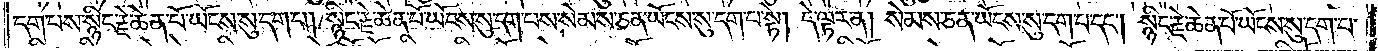དག་པས་སྙིང་རྗེ་ཆེན་པོ་ཡོངས་སུ་དག་པ། སྙིང་རྗེ་ཆེན་པོ་ཡོངས་སུ་དག་པས་སེམས་ཅན་ཡོངས་སུ་དག་པ་སྟེ། དེ་ལྟར་ན། སེམས་ཅན་ཡོངས་སུ་དག་པ་དང༌། སྙིང་རྗེ་ཆེན་པོ་ཡོངས་སུ་དག་པ་
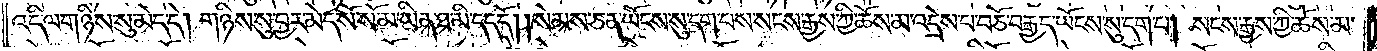འདི་ལ་གཉིས་སུ་མེད་དེ། གཉིས་སུ་བྱར་མེད་སོ་སོ་མ་ཡིན་ཐ་མི་དད་དོ། །སེམས་ཅན་ཡོངས་སུ་དག་པས་སངས་རྒྱས་ཀྱི་ཆོས་མ་འདྲེས་པ་བཅོ་བརྒྱད་ཡོངས་སུ་དག་པ། སངས་རྒྱས་ཀྱི་ཆོས་མ་
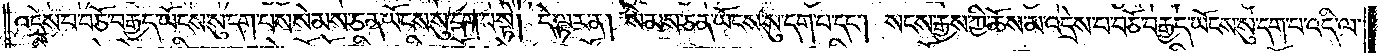འདྲེས་པ་བཅོ་བརྒྱད་ཡོངས་སུ་དག་པས་སེམས་ཅན་ཡོངས་སུ་དག་པ་སྟེ། དེ་ལྟར་ན། སེམས་ཅན་ཡོངས་སུ་དག་པ་དང༌། སངས་རྒྱས་ཀྱི་ཆོས་མ་འདྲེས་པ་བཅོ་བརྒྱད་ཡོངས་སུ་དག་པ་འདི་ལ་
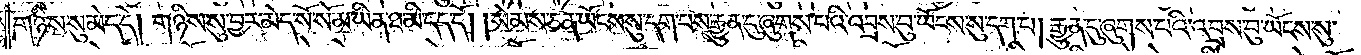གཉིས་སུ་མེད་དེ། གཉིས་སུ་བྱར་མེད་སོ་སོ་མ་ཡིན་ཐ་མི་དད་དོ། །སེམས་ཅན་ཡོངས་སུ་དག་པས་རྒྱུན་དུ་ཞུགས་པའི་འབྲས་བུ་ཡོངས་སུ་དག་པ། རྒྱུན་དུ་ཞུགས་པའི་འབྲས་བུ་ཡོངས་སུ་
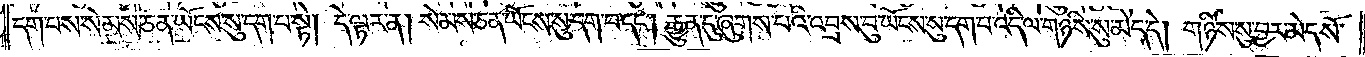དག་པས་སེམས་ཅན་ཡོངས་སུ་དག་པ་སྟེ། དེ་ལྟར་ན། སེམས་ཅན་ཡོངས་སུ་དག་པ་དང༌། རྒྱུན་དུ་ཞུགས་པའི་འབྲས་བུ་ཡོངས་སུ་དག་པ་འདི་ལ་གཉིས་སུ་མེད་དེ། གཉིས་སུ་བྱར་མེད་སོ་
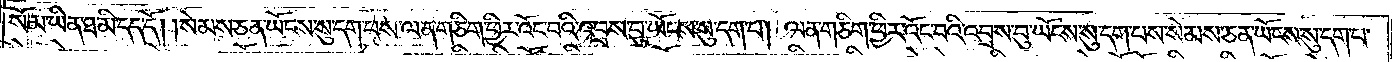སོ་མ་ཡིན་ཐ་མི་དད་དོ། །སེམས་ཅན་ཡོངས་སུ་དག་པས་ལན་ཅིག་ཕྱིར་འོང་བའི་འབྲས་བུ་ཡོངས་སུ་དག་པ། ལན་ཅིག་ཕྱིར་འོང་བའི་འབྲས་བུ་ཡོངས་སུ་དག་པས་སེམས་ཅན་ཡོངས་སུ་དག་པ་
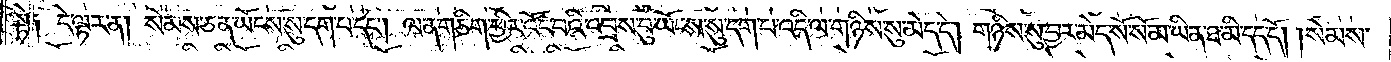སྟེ༑ དེ་ལྟར་ན། སེམས་ཅན་ཡོངས་སུ་དག་པ་དང༌། ལན་ཅིག་ཕྱིར་འོང་བའི་འབྲས་བུ་ཡོངས་སུ་དག་པ་འདི་ལ་གཉིས་སུ་མེད་དེ། གཉིས་སུ་བྱར་མེད་སོ་སོ་མ་ཡིན་ཐ་མི་དད་དོ། །སེམས་
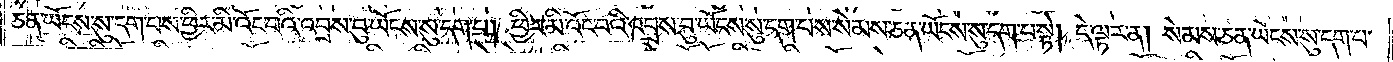ཅན་ཡོངས་སུ་དག་པས་ཕྱིར་མི་འོང་བའི་འབྲས་བུ་ཡོངས་སུ་དག་པ། ཕྱིར་མི་འོང་བའི་འབྲས་བུ་ཡོངས་སུ་དག་པས་སེམས་ཅན་ཡོངས་སུ་དག་པ་སྟེ། དེ་ལྟར་ན། སེམས་ཅན་ཡོངས་སུ་དག་པ་
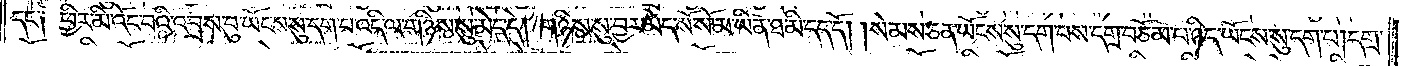དང་༑ ཕྱིར་མི་འོང་བའི་འབྲས་བུ་ཡོངས་སུ་དག་པ་འདི་ལ་གཉིས་སུ་མེད་དེ། གཉིས་སུ་བྱར་མེད་སོ་སོ་མ་ཡིན་ཐ་མི་དད་དོ། །སེམས་ཅན་ཡོངས་སུ་དག་པས་དགྲ་བཅོམ་པ་ཉིད་ཡོངས་སུ་དག་པ། དགྲ་
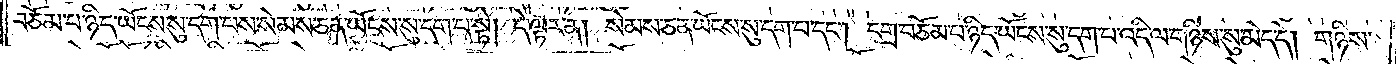བཅོམ་པ་ཉིད་ཡོངས་སུ་དག་པས་སེམས་ཅན་ཡོངས་སུ་དག་པ་སྟེ། དེ་ལྟར་ན། སེམས་ཅན་ཡོངས་སུ་དག་པ་དང༌། དགྲ་བཅོམ་པ་ཉིད་ཡོངས་སུ་དག་པ་འདི་ལ་གཉིས་སུ་མེད་དེ། གཉིས་
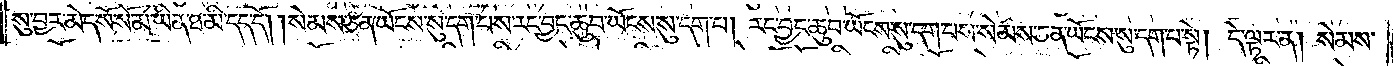སུ་བྱར་མེད་སོ་སོ་མ་ཡིན་ཐ་མི་དད་དོ། །སེམས་ཅན་ཡོངས་སུ་དག་པས་རང་བྱང་ཆུབ་ཡོངས་སུ་དག་པ། རང་བྱང་ཆུབ་ཡོངས་སུ་དག་པས་སེམས་ཅན་ཡོངས་སུ་དག་པ་སྟེ། དེ་ལྟར་ན། སེམས་
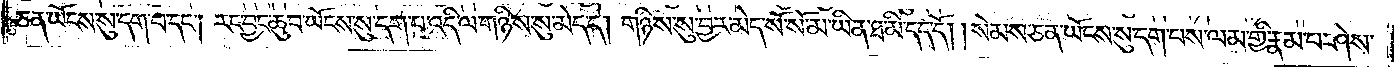ཅན་ཡོངས་སུ་དག་པ་དང༌། རང་བྱང་ཆུབ་ཡོངས་སུ་དག་པ་འདི་ལ་གཉིས་སུ་མེད་དེ། གཉིས་སུ་བྱར་མེད་སོ་སོ་མ་ཡིན་ཐ་མི་དད་དོ། །སེམས་ཅན་ཡོངས་སུ་དག་པས་ལམ་གྱི་རྣམ་པ་ཤེས་
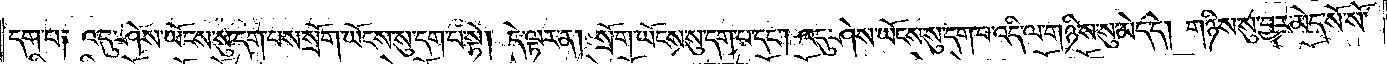དག་པ༑ འདུ་ཤེས་ཡོངས་སུ་དག་པས་སྲོག་ཡོངས་སུ་དག་པ་སྟེ། དེ་ལྟར་ན། སྲོག་ཡོངས་སུ་དག་པ་དང༌། འདུ་ཤེས་ཡོངས་སུ་དག་པ་འདི་ལ་གཉིས་སུ་མེད་དེ། གཉིས་སུ་བྱར་མེད་སོ་སོ་
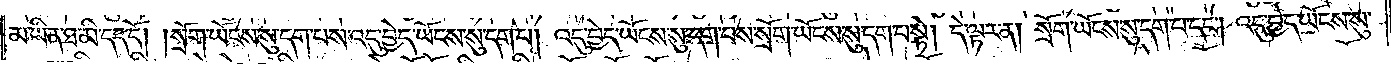མ་ཡིན་ཐ་མི་དད་དོ། །སྲོག་ཡོངས་སུ་དག་པས་འདུ་བྱེད་ཡོངས་སུ་དག་པ། འདུ་བྱེད་ཡོངས་སུ་དག་པས་སྲོག་ཡོངས་སུ་དག་པ་སྟེ། དེ་ལྟར་ན། སྲོག་ཡོངས་སུ་དག་པ་དང༌། འདུ་བྱེད་ཡོངས་སུ་
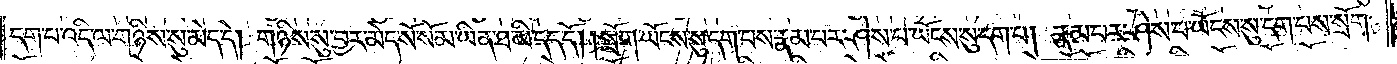དག་པ་འདི་ལ་གཉིས་སུ་མེད་དེ། གཉིས་སུ་བྱར་མེད་སོ་སོ་མ་ཡིན་ཐ་མི་དད་དོ། །སྲོག་ཡོངས་སུ་དག་པས་རྣམ་པར་ཤེས་པ་ཡོངས་སུ་དག་པ། རྣམ་པར་ཤེས་པ་ཡོངས་སུ་དག་པས་སྲོག་
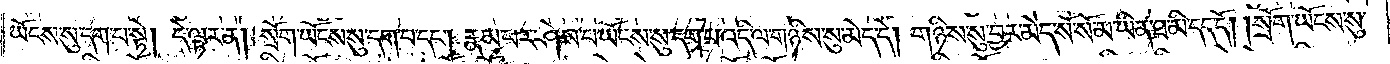ཡོངས་སུ་དག་པ་སྟེ། དེ་ལྟར་ན། སྲོག་ཡོངས་སུ་དག་པ་དང༌། རྣམ་པར་ཤེས་པ་ཡོངས་སུ་དག་པ་འདི་ལ་གཉིས་སུ་མེད་དེ། གཉིས་སུ་བྱར་མེད་སོ་སོ་མ་ཡིན་ཐ་མི་དད་དོ། །སྲོག་ཡོངས་སུ་
